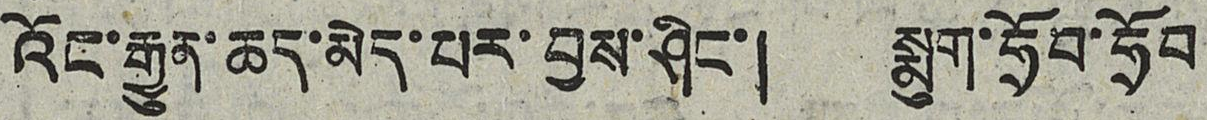འོང་རྒྱུན་ཆད་མེད་པར་བྱས་ཤིང་། སྨུག་ཧྲོབ་ཧྲོབ་
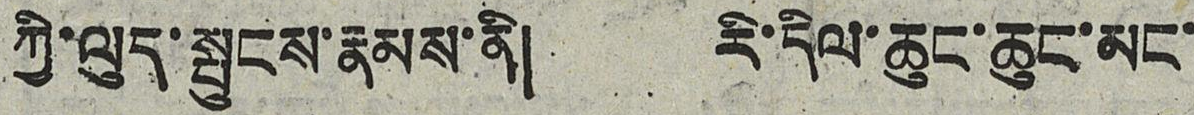ཀྱི་ལུད་སྤྱངས་རྣམས་ནི། རི་དིལ་ཆུང་ཆུང་མང་
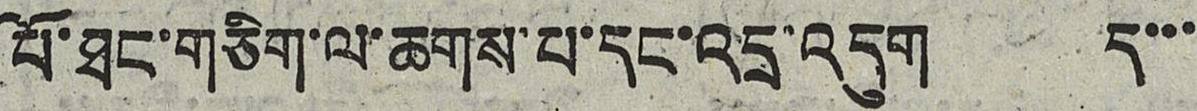པོ་ཐང་གཅིག་ལ་ཆགས་པ་དང་འདྲ་འདུག ད་་་
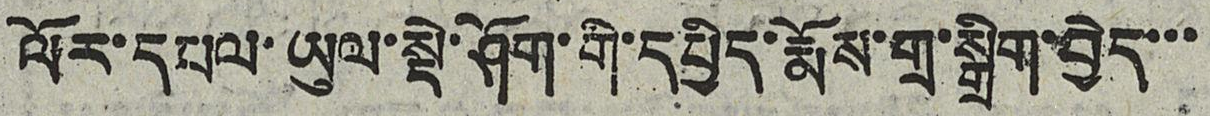ལོར་དཔལ་ཡུལ་སྡེ་ཤོག་གི་དཔྱིད་རྨོས་གྲ་སྒྲིག་བྱེད་་་
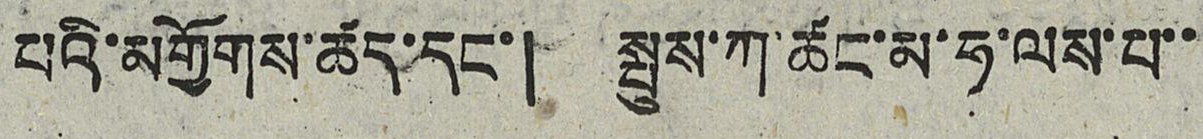པའི་མགྱོགས་ཚད་དང་། སྤུས་ཀ་ཚང་མ་ཧ་ལས་པ་་
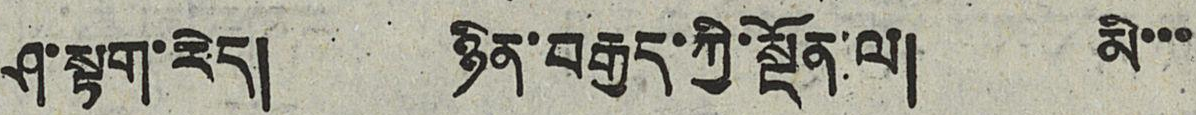ཤ་སྟག་རེད། ཉིན་བརྒྱད་ཀྱི་སྔོན་ལ། མི་་་
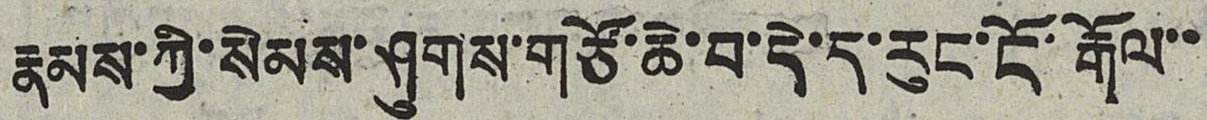རྣམས་ཀྱི་སེམས་ཤུགས་གཙོ་ཆེ་བ་དེ་ད་རུང་ངོ་རྒོལ་་
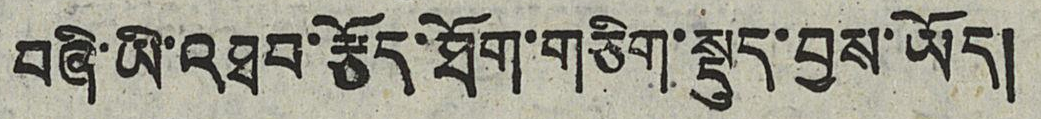བཞི་ཡི་འཐབ་རྩོད་ཐོག་གཅིག་སྡུད་བྱས་ཡོད།
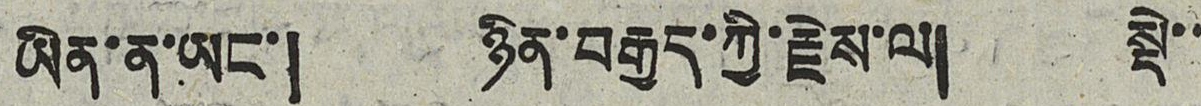ཡིན་ན་ཡང་། ཉིན་བརྒྱད་ཀྱི་རྗེས་ལ། སྡེ་་
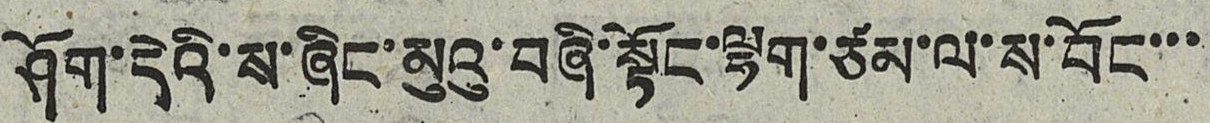ཤོག་དེའི་ས་ཞིང་མུའུ་བཞི་སྟོང་ལྷག་ཙམ་ལ་ས་བོང་་་
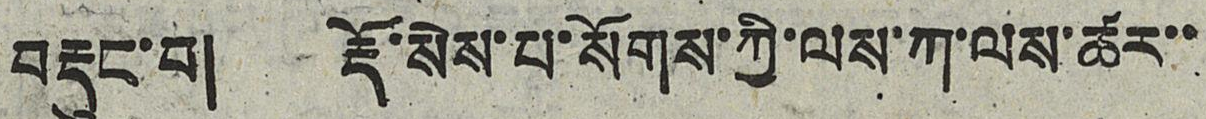བརྡུང་བ། རྡོ་སེས་པ་སོགས་ཀྱི་ལས་ཀ་ལས་ཚར་་
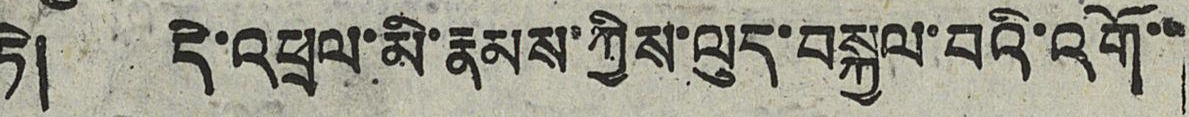ཏེ། དེ་འཕྲལ་མི་རྣམས་ཀྱིས་ལུད་བསྐྱལ་བའི་འགོ་་
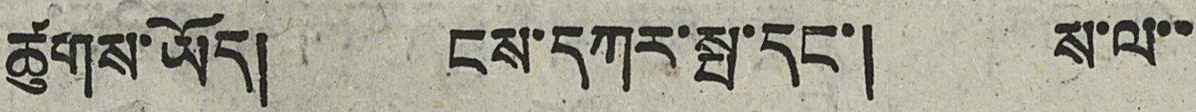ཚུགས་ཡོད། ངས་དཀར་སྤ་དང་། ས་ལ་་
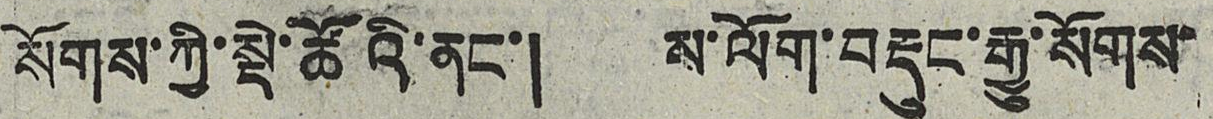སོགས་ཀྱི་སྡེ་ཚོའི་ནང་། ས་ལོག་བརྡུང་རྒྱུ་སོགས་
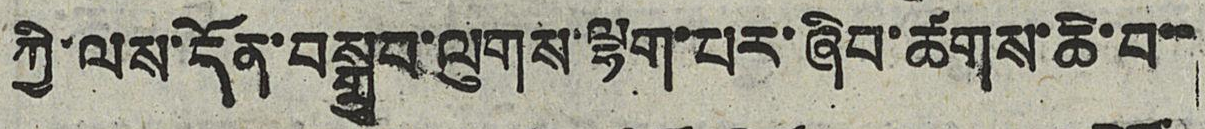ཀྱི་ལས་དོན་བསྒྲུབ་ལུགས་ལྷག་པར་ཞིབ་ཚགས་ཆེ་བ་
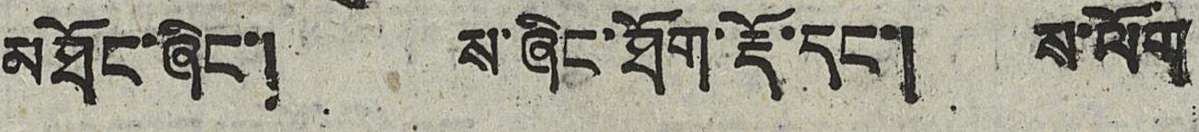མཐོང་ཞིང་། ས་ཞིང་ཐོག་རྡོ་དང་། ས་ལོག
